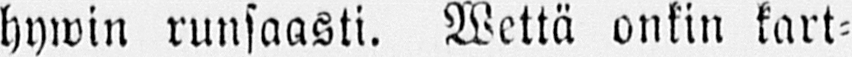hywin runsaasti. Wettä onkin kart-
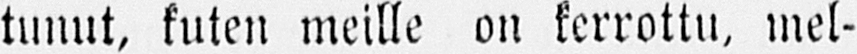tunut, kuten meille on kerrottu, mel-
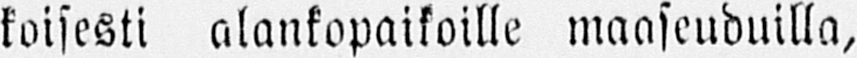koisesti alankopaikoille maaseuduilla,
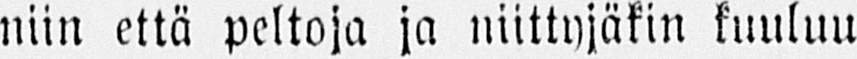niin että peltoja ja niittyjäkin kuuluu
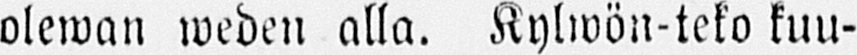olewan weden alla. Kylwön-teko kuu-
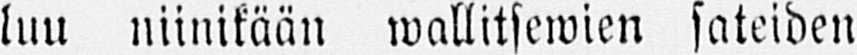luu niinikään wallitsewien sateiden
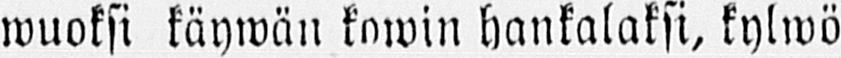wuoksi käywän kowin hankalaksi, kylwö-
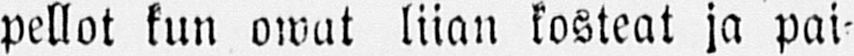pellot kun owat liian kosteat ja pai-
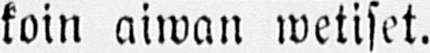koin aiwan wetiset.
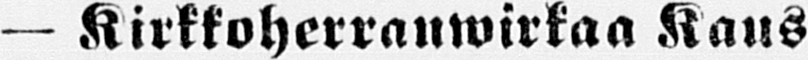— Kirkkoherranwirkaa Kaus-
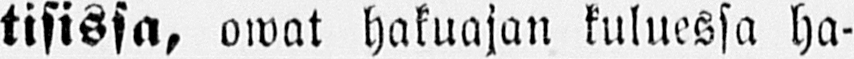tisissa, owat hakuajan kuluessa ha-
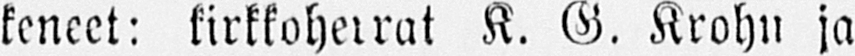keneet: kirkkoherrat K. G. Krohn ja
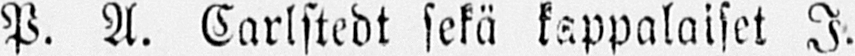P. A. Carlstedt sekä kappalaiset I.
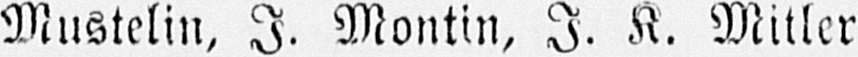Mustelin, I. Montin, J. K. Mitler
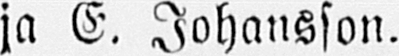ja E. Johansson.
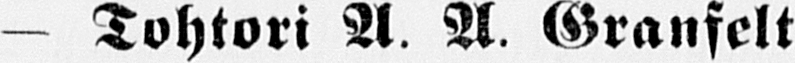— Tohtori A. A. Granfelt
